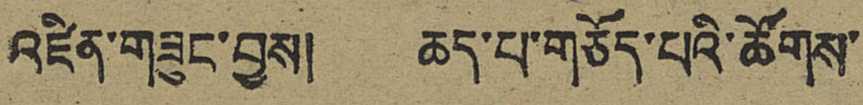འཛིན་གཟུང་བྱས། ཆད་པ་གཅོད་པའི་ཚོགས་
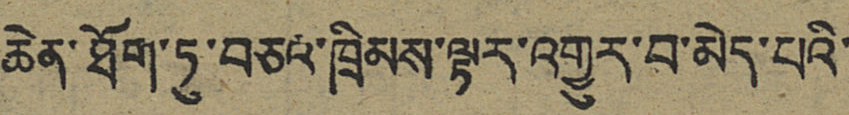ཆེན་ཐོག་ཏུ་བཅའ་ཁྲིམས་ལྟར་འགྱུར་བ་མེད་པའི་
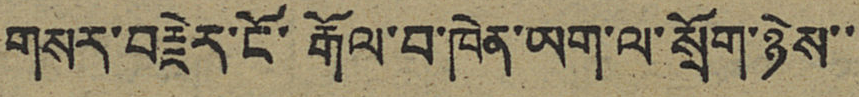གསར་བརྗེར་ངོ་རྒོལ་བ་ཁེན་ཡག་ལ་སྲོག་ཉེས་་
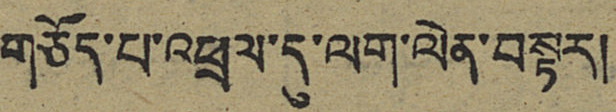གཅོད་པ་འཕྲལ་དུ་ལག་ལེན་བསྟར།
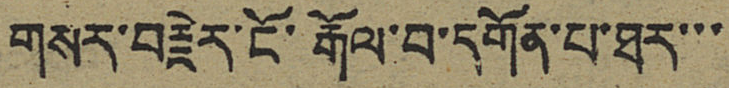གསར་བརྗེར་ངོ་རྒོལ་བ་དགོན་པ་ཐར་་་
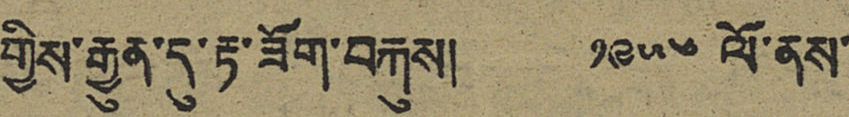གྱིས་རྒྱུན་དུ་རྟ་ཟོག་བརྐུས། ༡༩༥༦ ལོ་ནས་
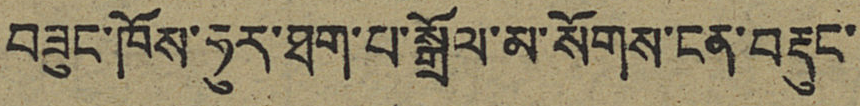བཟུང་ཁོས་ཧུར་ཐག་པ་སྒྲོལ་མ་སོགས་ངན་བརྡུང་
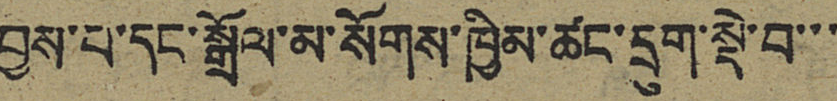བྱས་པ་དང་སྒྲོལ་མ་སོགས་ཁྱིམ་ཚང་དྲུག་སྡེ་བ་་་
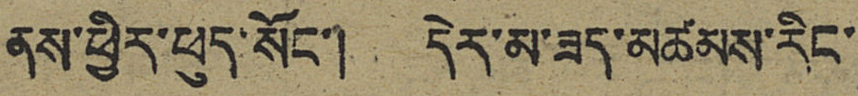ནས་ཕྱིར་ཕུད་སོང་། དེར་མ་ཟད་མཚམས་རིང་
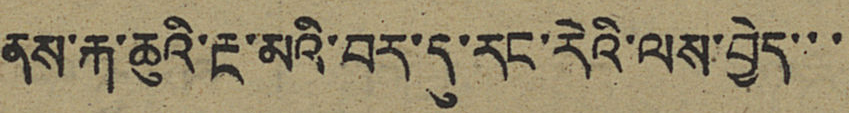ནས་རྐ་ཆུའི་རྔ་མའི་བར་དུ་རང་རེའི་ལས་བྱེད་་་
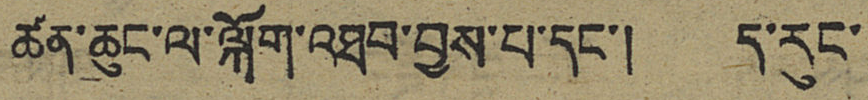ཚན་ཆུང་ལ་ལྐོག་འཐབ་བྱས་པ་དང་། ད་རུང་
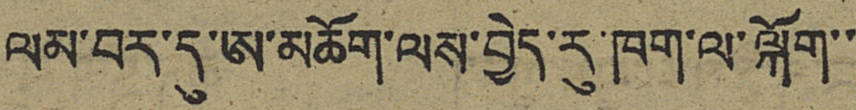ལམ་བར་དུ་ཨ་མཆོག་ལས་བྱེད་རུ་ཁག་ལ་ལྐོག་་
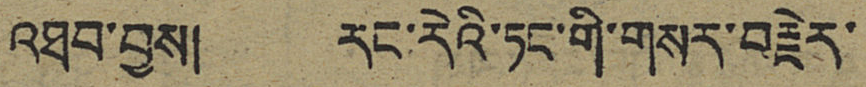འཐབ་བྱས། རང་རེའི་ཏང་གི་གསར་བརྗེར་
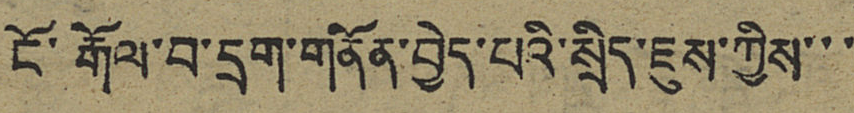ངོ་རྒོལ་བ་དྲག་གནོན་བྱེད་པའི་སྲིད་ཇུས་ཀྱིས་་་
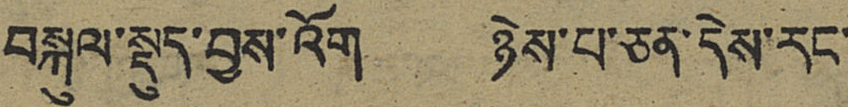བསྐུལ་སྡུད་བྱས་འོག ཉེས་པ་ཅན་དེས་རང་
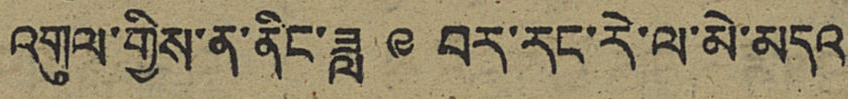འགུལ་གྱིས་ན་ནིང་ཟླ ༩ བར་རང་རེ་ལ་མེ་མདའ་
